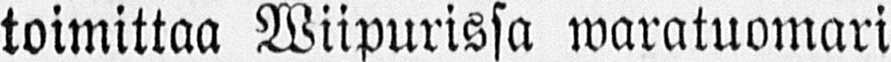toimittaa Wiipurissa waratuomari
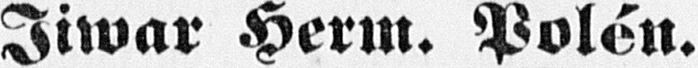Iiwar Herm. Polén.
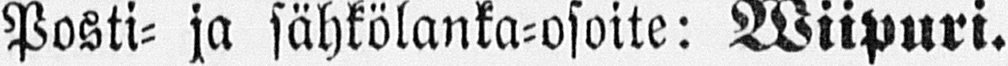Posti- ja sähkölanka-osoite: Wiipuri.
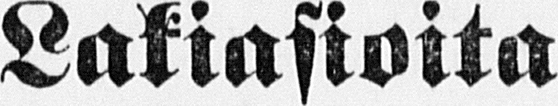Lakiasioita
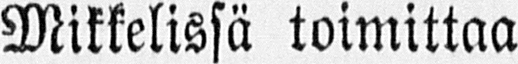Mikkelissä toimittaa
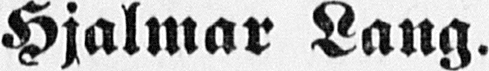Hjalmar Lang.
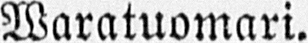Waratuomari.
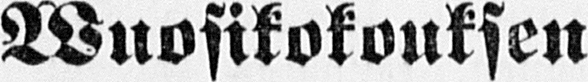Wuosikokouksen
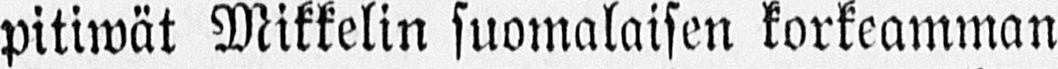pitiwät Mikkelin suomalaisen korkeamman
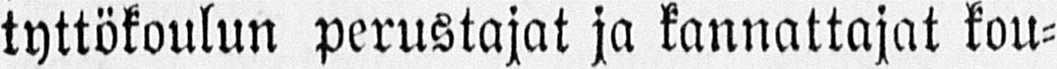tyttökoulun perustajat ja kannattajat kou-
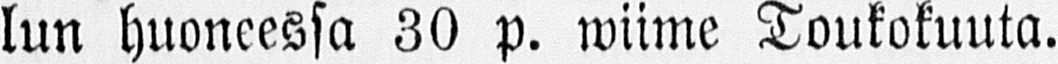lun huoneessa 30 p. wiime Toukokuuta.
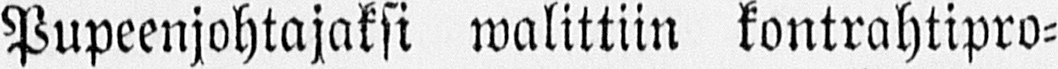Pupeenjohtajaksi walittiin kontrahtipro-
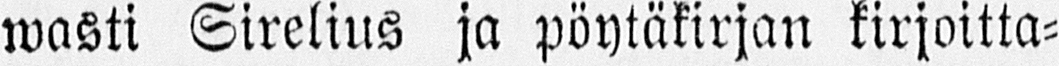wasti Sirelius ja pöytäkirjan kirjoitta-
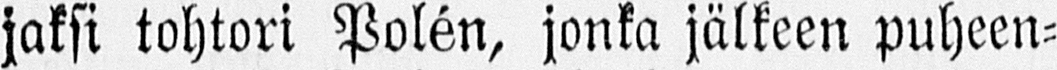jaksi tohtori Polén, jonka jälkeen puheen-
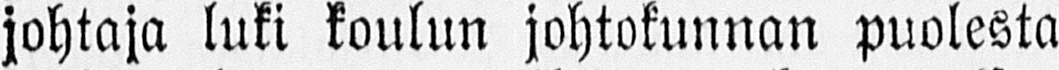johtaja luki koulun johtokunnan puolesta
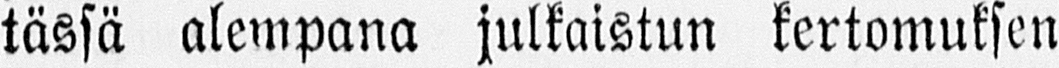tässä alempana julkaistun kertomuksen
